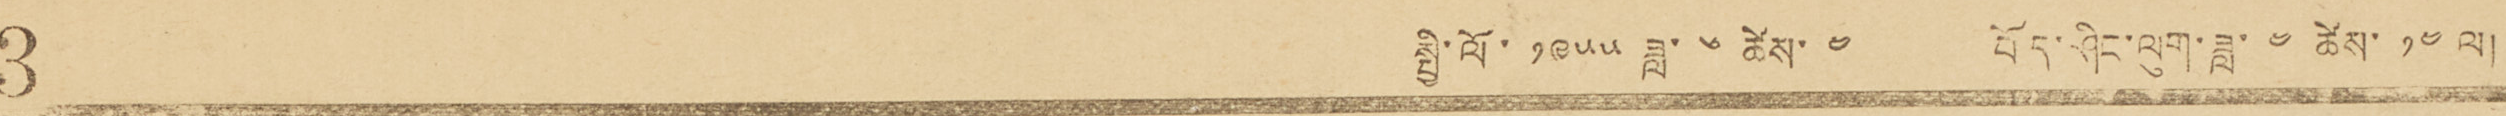3 སྤྱི་ལོ་ ༡༩༥༥ ཟླ་ ༦ ཚེས་ ༤ བོད་ཤིང་ལུག་ཟླ་ ༤ ཚེས་ ༡༤ ལ།
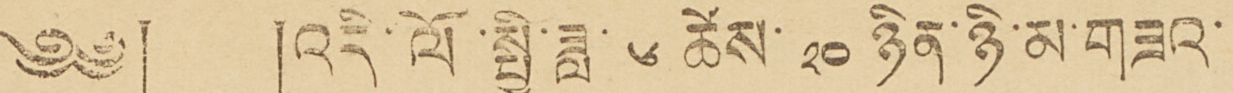༄༅། །འདི་ལོ་སྤྱི་ཟླ་ ༦ ཚེས་ ༢༠ ཉིན་ཉི་མ་གཟའ་
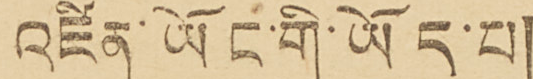འཛིན་ཡོང་གི་ཡོད་པ།
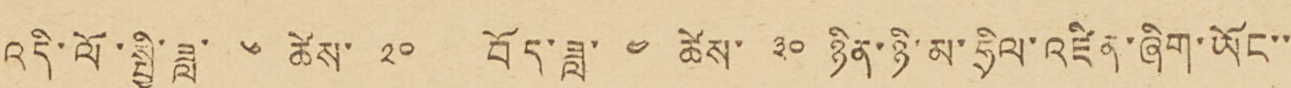འདི་ལོ་སྤྱི་ཟླ་ ༦ ཚེས་ ༢༠ བོད་ཟླ་ ༤ ཚེས་ ༣༠ ཉིན་ཉི་མ་ཧྲིལ་འཛིན་ཞིག་ཡོང་་་
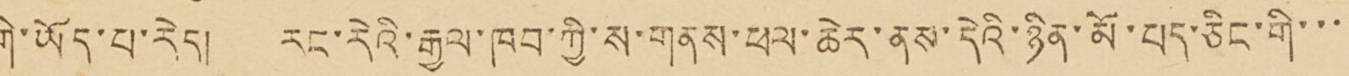གི་ཡོད་པ་རེད། རང་རེའི་རྒྱལ་ཁབ་ཀྱི་ས་གནས་ཕལ་ཆེར་ནས་དེའི་ཉིན་མོ་པད་ཅིང་གི་་་་
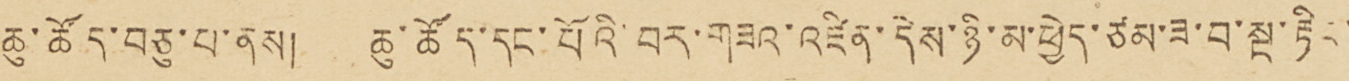ཆུ་ཚོད་བཅུ་པ་ནས། ཆུ་ཚོད་དང་པོའི་བར་གཟའ་འཛིན་དེས་ཉི་མ་ཕྱེད་ཙམ་ཟ་བ་སྔ་རྟིང་་
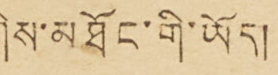གིས་མཐོང་གི་ཡོད།
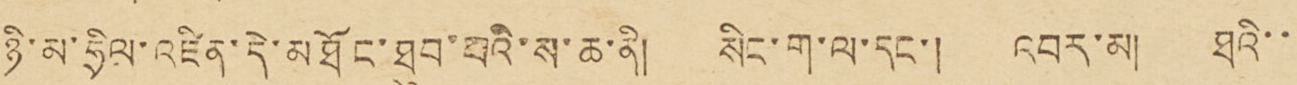ཉི་མ་ཧྲིལ་འཛིན་དེ་མཐོང་ཐུབ་པའི་ས་ཆ་ནི། སིང་ག་ལ་དང་། འབར་མ། ཐའི་་་
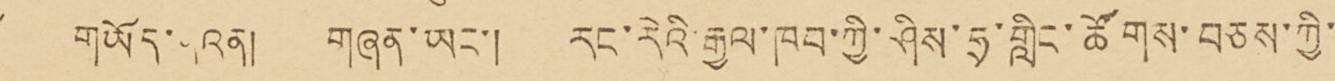གོ གཡོད་ནའན། གཞན་ཡང་། རང་རེའི་རྒྱལ་ཁབ་ཀྱི་ཤིས་ཧྲ་གླིང་ཚོགས་བཅས་ཀྱི་
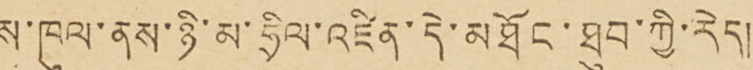ས་ཁུལ་ནས་ཉི་མ་ཧྲིལ་འཛིན་དེ་མཐོང་ཐུབ་ཀྱི་རེད།
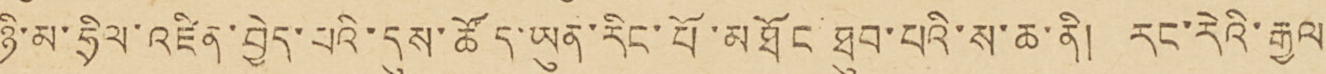ཉི་མ་ཧྲིལ་འཛིན་བྱེད་པའི་དུས་ཚོད་ཡུན་རིང་པོ་མཐོང་ཐུབ་པའི་ས་ཆ་ནི། རང་རེའི་རྒྱལ་
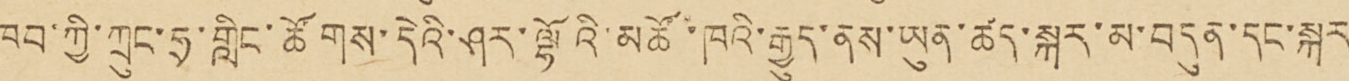ཁབ་ཀྱི་ཀྲུང་ཧྲ་གླིང་ཚོགས་དེའི་ཤར་ལྷོའི་མཚོ་ཁའི་རྒྱུད་ནས་ཡུན་ཚད་སྐར་མ་བདུན་དང་སྐར་
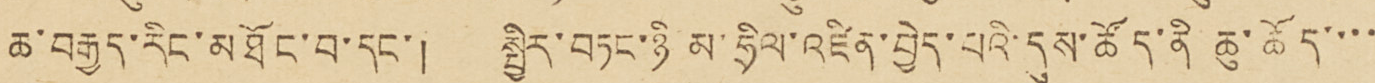ཆ་བརྒྱད་རིང་མཐོང་བ་དང་། སྤྱིར་བཏང་ཉི་མ་ཧྲིལ་འཛིན་བྱེད་པའི་དུས་ཚོད་ནི ཆུ་ཚོད་་་
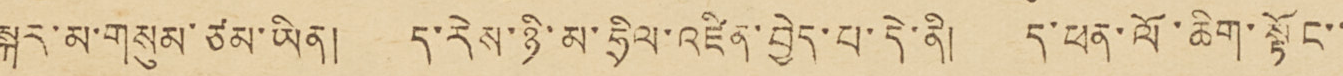སྐར་མ་གསུམ་ཙམ་ཡིན། ད་རེས་ཉི་མ་ཧྲིལ་འཛིན་བྱེད་པ་དེ་ནི། ད་ཕན་ལོ་ཆིག་སྟོང་་་
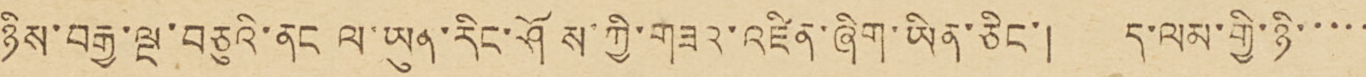ཉིས་བརྒྱ་ལྔ་བཅུའི་ནང ལ་ཡུན་རིང་ཤོས་ཀྱི་གཟའ་འཛིན་ཞིག་ཡིན་ཅིང་། ད་ལམ་གྱི་ཉི་་་་་
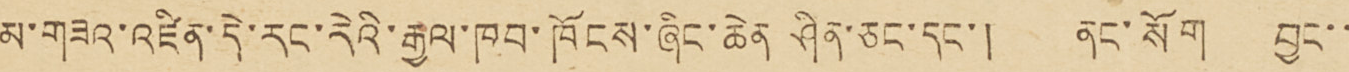མ་གཟའ་འཛིན་དེ་རང་རེའི་རྒྱལ་ཁབ་ཁོངས་ཞིང་ཆེན ཤིན་ཅང་དང་། ནང་སོག བྱང་་་
